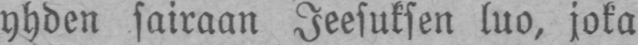yhden sairaan Jeesuksen luo, joka
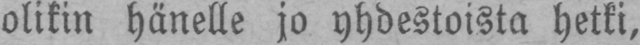olikin hänelle jo yhdestoista hetki,
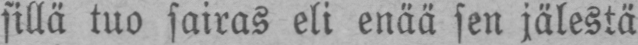sillä tuo sairas eli enää sen jälestä
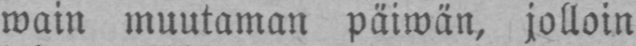wain muutaman päiwän, jolloin
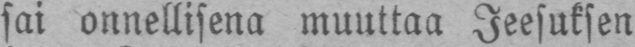sai onnellisena muuttaa Jeesuksen
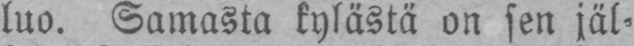luo. Samasta kylästä on sen jäl-
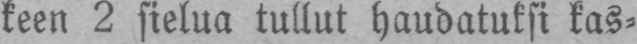keen 2 sielua tullut haudatuksi kas-
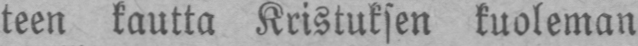teen kautta Kristuksen kuoleman
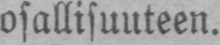osallisuuteen.
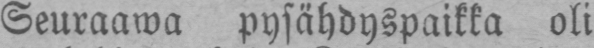Seuraawa pysähdyspaikka oli
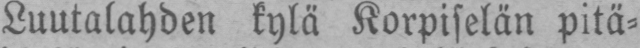Luutalahden kylä Korpiselän pitä-
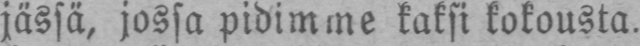jässä, jossa pidimme kaksi kokousta.
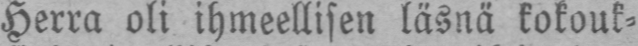Herra oli ihmeellisen läsnä kokouk-
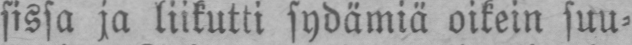sissa ja liikutti sydämiä oikein suu-
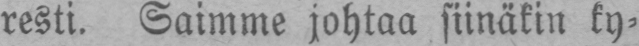resti. Saimme johtaa siinäkin ky-
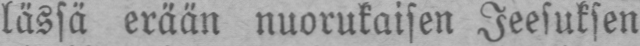lässä erään nuorukaisen Jeesuksen
